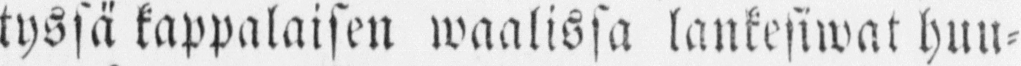tyssä kappalaisen waalissa lankesiwat huu-
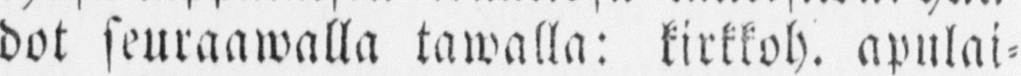dot seuraawalla tawalla: kirkkoh, apulai-
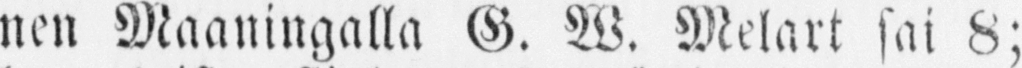nen Maaningalla G. W. Melart sai 8;
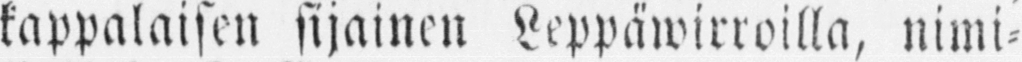kappalaisen sijainen Leppäwirroilla, nimi-
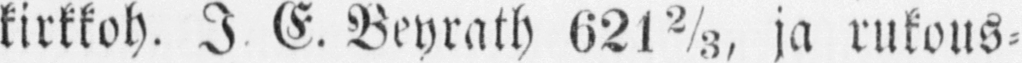kirkkoh. I. E. Beyrath 621⅔, ja rukous-
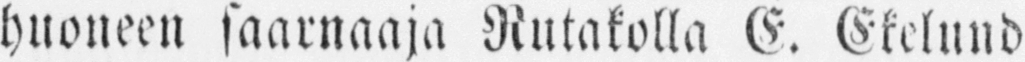huoneen saarnaaja Rutakolla E. Ekelund
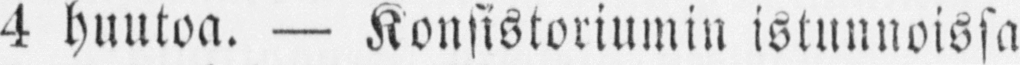4 huntoa. — Konsistoriumin istunnoissa
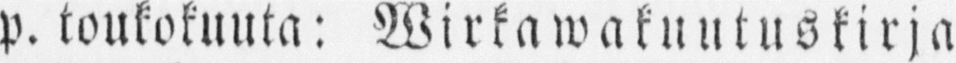9 p. toukokuuta: Wirkawakuutuskirja
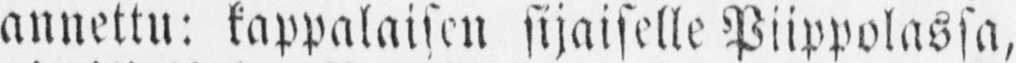annettu: kappalaisen sijaiselle Piippolassa,
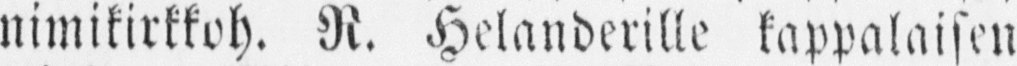nimikirkkoh. R. Helanderille kappalaisen
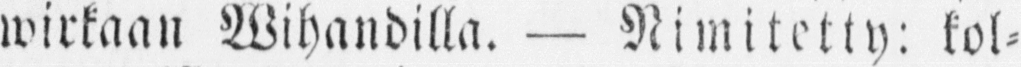wirkaan Wihandilla. — Nimitetty: kol-
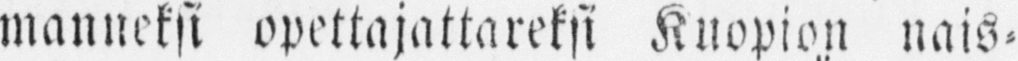manneksi opettajattareksi Kuopion nais-
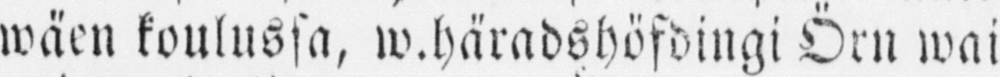wäen koulussa, w.häradshöfdingi Örn wai-
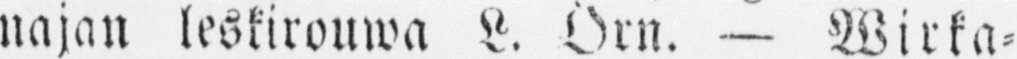najan leskirouwa L. Orn. — Wirka-
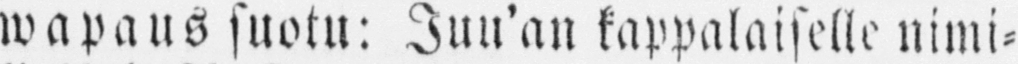wapaus suotu: Jun'an kappalaiselle nimi-
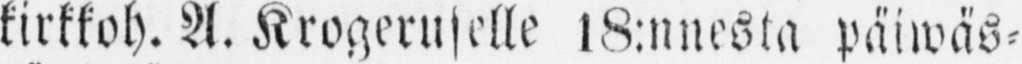kirkkoh. A. Krogeruselle 18:nnesta päiwäs-
